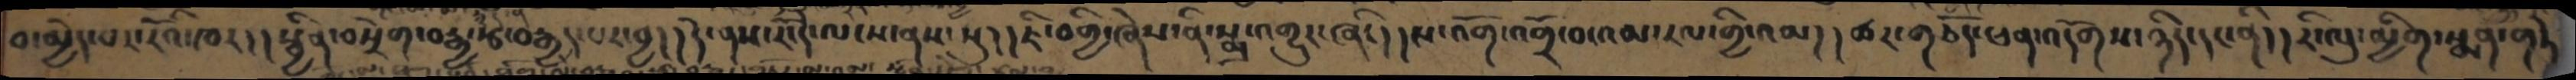བ་མྱེད་པར་རོའི་ཁར།། སྦྱིན་བསྲེག་བརྒྱ་རྩ་བརྒྱད་པར་བྱ།། དེ་ནས་རོ་དེ་ལངས་ནས་སུ།། ཇི་བགྱི་ཞེས་ནི་སྨྲ་འགྱུར་ཞིང།། ས་འོག་འགྲོ་བ་འམ་རལ་གྱི་འམ།། ཚར་གཅོད་ཕན་འདོགས་ཉིད་དང་ནི།། རི་ལུ་མྱིག་སྨན་གཏེ
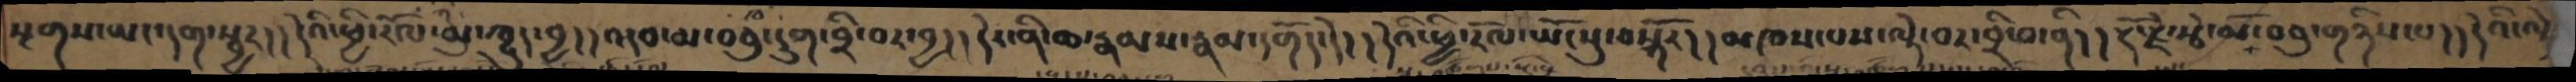སྔགས་ཡང་དག་སྦྱར།། དེའི་ཕྱི་རོལ་མུ་ཁྱུད་བྱ།། འདབ་མ་བཅུ་དྲུག་བྲི་བར་བྱ།། དེར་ནི་ཆ་རྣམས་རྣམ་དགོད་དེ།། དེའི་ཕྱི་རོལ་ཡོངསུ་བསྐོར།། མཁས་པས་ལྟེ་བར་བྲི་བ་ནི།། རྡོ་རྗེ་རྩེ་མོ་བཅུ་གཉིས་པ།། དེའི་ལྟེ
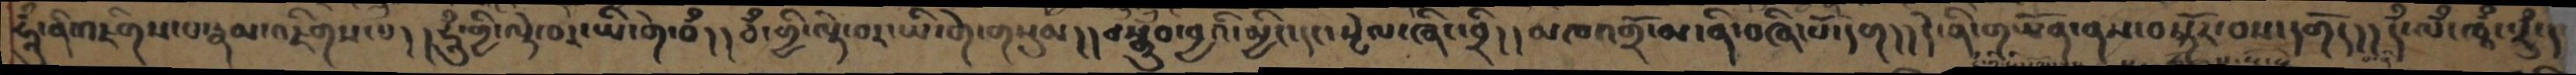ཧཱུྃ་ནི་འཇིགས་པ་རྣམ་འཇིགས་པ།། ཧཱུཾ་གྱི་ལྟེ་བར་ཡི་གེ་བྃ།། བྃ་གྱི་ལྟེ་བར་ཡི་གེ་གསུམ།། བསྒྲུབ་བྱའི་མྱིང་དང་སྤེལ་ཞིང་བྲི།། མཁའགྲོ་མ་ནི་བཞི་པོ་དག།། དེ་ནི་གཡོན་ནས་བསྐོར་བས་དགོད།། དྃ་ལྃ་ཁཱྃ་རཱྃ་།
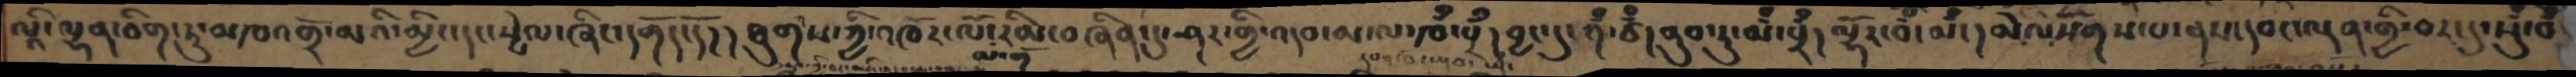ལཱི་ལྷན་ཅིག་ཏུ་མཁའགྲོ་མའི་མྱིང་དང་སྤེལ་ཞིང་དགོད་དོ།། ཐུགས་ཀྱི་འཁོར་ལོ་རིམ་བཞིན་དུ་ཤར་གྱི་འདབ་མ་ལ་ཁྃ་པྲྃ། བྱང་དུ་ཀྃ་ཙྃ། ནུབ་ཏུ་མྃ་པྲྃ། ལྷོར་བྃ་མྃ། མེ་ལསོགས་པ་ནས་དབང་ལྡན་གྱི་བར་དུ་སུྃ་བྃ
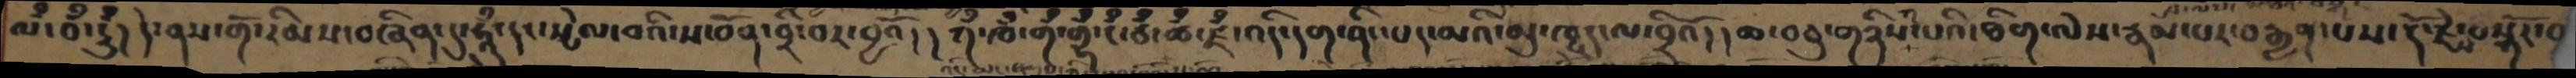ལྃ་བྃ་ཧཱུྃ། དེ་ནས་གོ་རིམས་བཞིན་དུ་ཧཱུྃ་དང་སྤེལ་བའི་ས་བོན་བྲི་བར་བྱའོ། །ཀྃ་ཁྃ་གྃ་གྷྃ་ངྃ་ཅྃ་ཆྃ་ཛྃ་འདི་དག་ནི་པད་མའི་མུ་ཁྱུད་ལ་བྲིའོ།།ཆ་བཅུ་གཉིས་པའི་ཐིག་ལེས་རྣམ་པར་བརྒྱན་པས་རྡོ་རྗེས་བསྐོར་བ
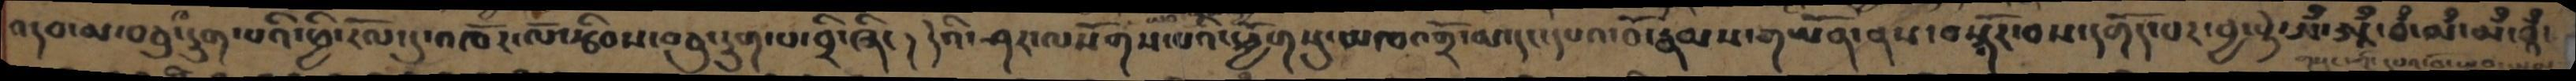འདབ་མ་བཅུ་དྲུག་པའི་ཕྱི་རོལ་དུ་འཁོར་ལོ་རྩིབས་བཅུ་དྲུག་པ་བྲི་ཞིང། དེའི་ཤར་ལསོགས་པའི་ཕྱོགསུ་མཁའགྲོ་མ་དང་དཔའ་བོ་རྣམས་གཡོན་ནས་བསྐོར་བས་དགོད་པར་བྱ་སྟེ་ཨྃ་ཨཱྃ་བྃ་མྃ་མྃ་བཱྃ་
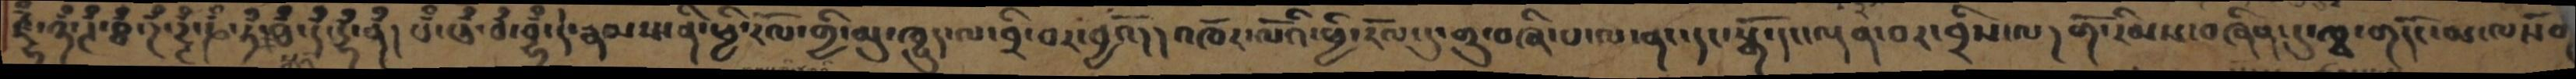ཛྷྃ་ཉྃ་ཊྃ་ཐཾ་ཌྃ་ཌྚྃ་ཎྃ་ཏྃ་ཐྃ་དྃ་དྷྃ་ནྃ། པྃ་ཕྃ་བྃ་བྷྃ་དེ་རྣམས་ནི་ཕྱི་རོལ་གྱི་མུ་ཁྱུད་ལ་བྲི་བར་བྱའོ།། འཁོར་ལོའི་ཕྱི་རོལ་དུ་གྲུ་བཞི་པ་ལ་ནང་དང་སྒོ་དང་ལྡན་པར་བྲིས་ལ། གོ་རིམས་བཞིན་དུ་ཁྭ་གདོང་མ་ལསོགས
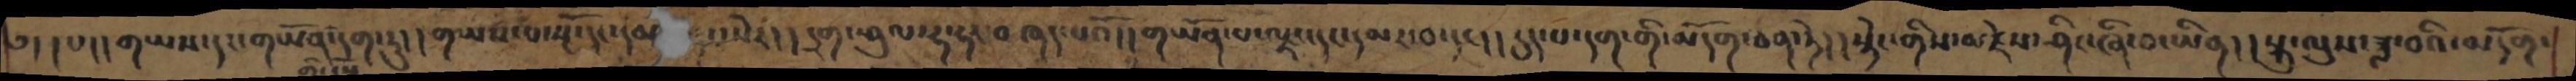༄། །པ།།གཡས་དང་གཡོན་དག་ཏུ།། གཡས་པ་སྔོ་དང་དམར་དང་སེར།། དྲག་ཤུལ་ཧ་ཧར་བཞད་པའོ།། གཡོན་པ་ལྗང་དང་དམར་བ་དང། །དུད་པ་དག་གི་མདོག་ཅན་ཏེ། །སྟེང་གིས་མཛེས་ཞིང་ཞི་བ་ཡིན། །སྐུ་ལུས་ཟླ་བའི་མདོག་
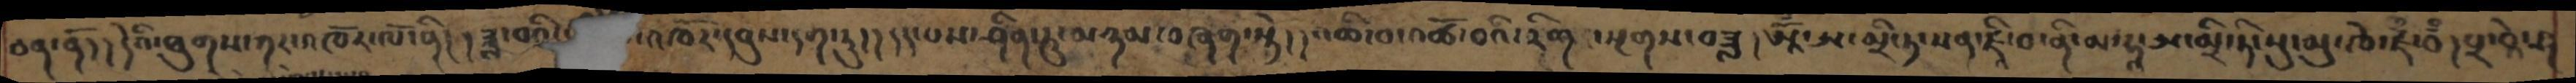ཅན་ནོ། །དེའི་ཐུགས་ཀར་འཁོར་ལོ་ནི།། ཟླ་བའི་  འཁོར་དབུས་དག་ཏུ།། དད་པས་ཤིན་ཏུ་མཉམ་བཞག་སྟེ།། འཆི་བ་འཚོ་བའི་རིག་སྔགས་བཟླ། ཨཱོྃ་ཨ་མྲི་ཏ་སན་ཛཱི་བ་ནི་མ་ཧཱ་ཨ་མྲི་ཏི་སུ་མུ་ཁེ་ཛྃ་བྃ། པྲ་བཱེ་ར
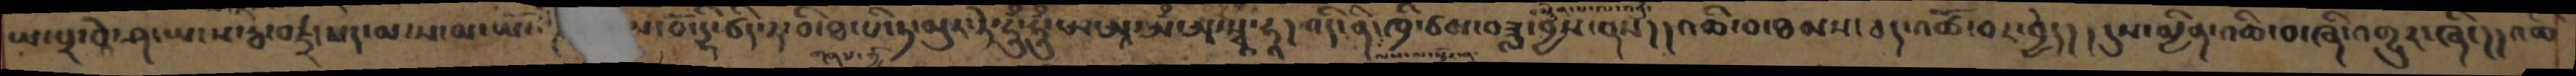ཡ་པྲ་བཱེ་ཤ་ཡ་ས་རྦ་བཛྲ་པད་མ་ས་མ་ཡོ་  ས་བོ་དྷི་ཙིད་དྷ་བི་ཐ་པི་ཏ་མུར་ཏེ་ཧཱུྃ་ཧཱུྃ་ཨ་ཨཱ་ཨྃ་ཨ་སྭཱ་ཧཱ། འདི་ནི་ཁྲི་ཙམ་བཟླ་བྱས་ནས།། འཆི་བ་ཐམས་ཅད་འཚོ་བར་བྱེད། །དུས་མྱིན་འཆི་བ་ཞི་འགྱུར་ཞིང།།འཆི
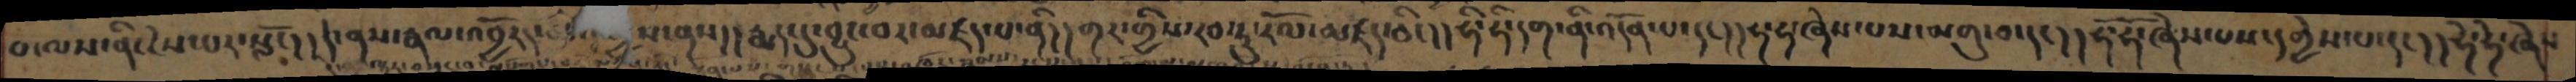པ་ལས་ནི་ངེས་པར་སློང།།དེ་ནས་རྣལ་འབྱོརད་ བྱས་ནས།། རྨད་དུ་བྱུང་བར་མཛད་པ་ནི། །གར་གྱིས་རབ་ཏུ་རོལ་མཛད་ཅིང།། ཧི་ཧི་དག་ནི་འདོན་པ་དང།། ཧ་ཧ་ཞེས་པས་མགུ་བ་དང། ཧོ་ཧོ་ཞེས་པས་དགྱེས་པ་དང།།ཧེ་ཧེ་ཞེས་
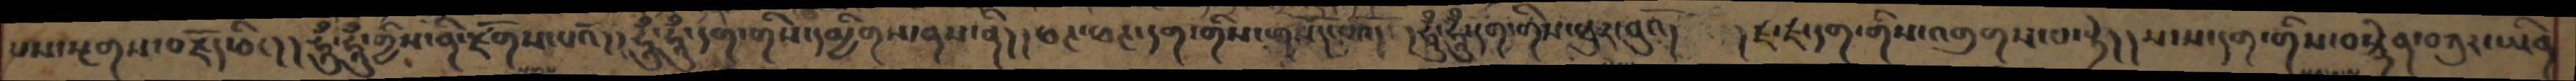པས་སྔགས་བརྗོད་ཅིང།། ཧཱུྃ་ཧཱུྃ་གྱིས་ནི་རྫོགས་པའོ།། ཧཱུྃ་ཧཱུྃ་དག་གིས་དམྱིགས་ནས་ནི།།ཕཊ་ཕཊ་དག་གིས་གསོད་པའོ། །ཧཱུྃ་ཧཱུྃ་དག་གིས་ཕུར་བུའོ། །ཛ་ཛ་དག་གིས་འགུགས་པ་སྟེ། །ས་ས་དག་གིས་བསྙེན་བཀུར་ཡིན
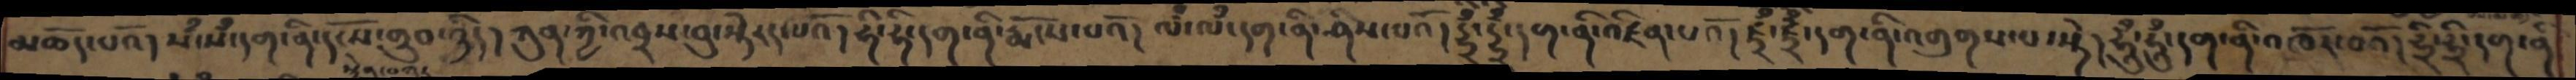མཆོད་པའོ། སྃ་སྃ་དག་ནི་དངོས་གྲུབ་ཉིད། ཀུན་ཀྱི་འབྲས་བུ་སྟེརད་པའོ། ཧི་ཧི་དག་ནི་རྨོངས་པའོ། ལྃ་ལྃ་དག་ནི་ཤིས་པའོ། དྷྲྃ་་དྷྲྃ་དག་ནི་འཛིན་པའོ། ཛྲྃ་ཛྲྃ་དག་ནི་འགུགས་པ་སྟེ། ཧཱུྃ་ཧཱུྃ་དག་ནི་འཁོར་བའོ། ཧྲི་ཧྲི་དག་ནི
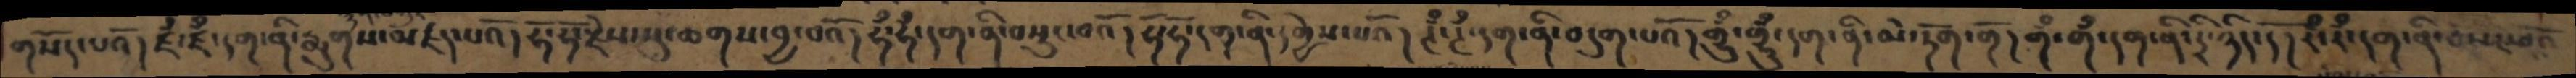གསོད་པའོ། ཛྃ་ཛྃ་དག་ནི་རྨུགས་མཛད་པའོ། ཧོ་ཧོ་རྗེས་སུ་ཆགས་བྱ་བའོ། ཧྃ་ཧྃ་དག་ནི་བསྲུང་བའོ། ཧོ་ཧོ་དག་ནི་དགྱེས་པའོ། ཊྃ་ཊྃ་དག་ནི་བདུག་པའོ། གྷུྃ་གྷུྃ་དག་ནི་མེ་ཏོག་གོ། གྃ་གྃ་དག་ནི་དྲི་ཉིད་དོ། རྃ་རྃ་དག་ནི་བསད་པའོ
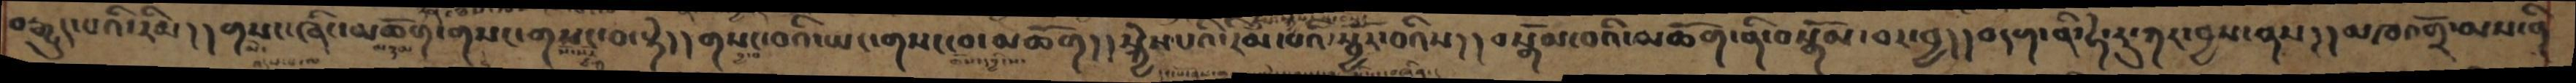བརྒྱུད་པའི་རིམ།།གསང་ཞིང་མཆོག་གསང་གསང་བ་སྟེ།། གསང་བའི་ཡང་གསང་བ་མཆོག།།སྐྱེས་པའི་རིམ་པའི་སྦྱོར་བའིས།།བསྒོམ་བའི་མཆོག་ནི་བསྒོམ་བར་བྱ།།བདག་ནི་ཧེ་རུ་ཀར་བྱས་ནས།།མཁའགྲོ་མས་ནི
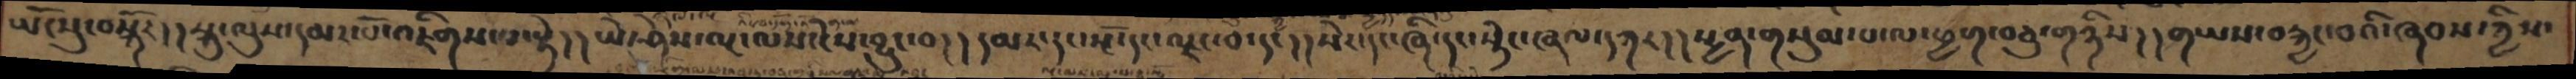ཡོངསུ་བསྐོར།།སྐུ་ལུས་དམར་པོ་འཇིགས་པ་སྟེ།། ཡེ་ཤེས་ལྔ་ལས་ངེས་བྱུང་བ།། དམར་དང་སྔོ་དང་ལྗང་བ་དང།།སེར་དང་ཞི་དང་སྟེང་ཞལ་དཀར།། སྤྱན་གསུམ་པ་ལ་ཕྱག་བཅུ་གཉིས།། གཡས་བརྐྱང་བའི་ཞབས་ཀྱིས་
